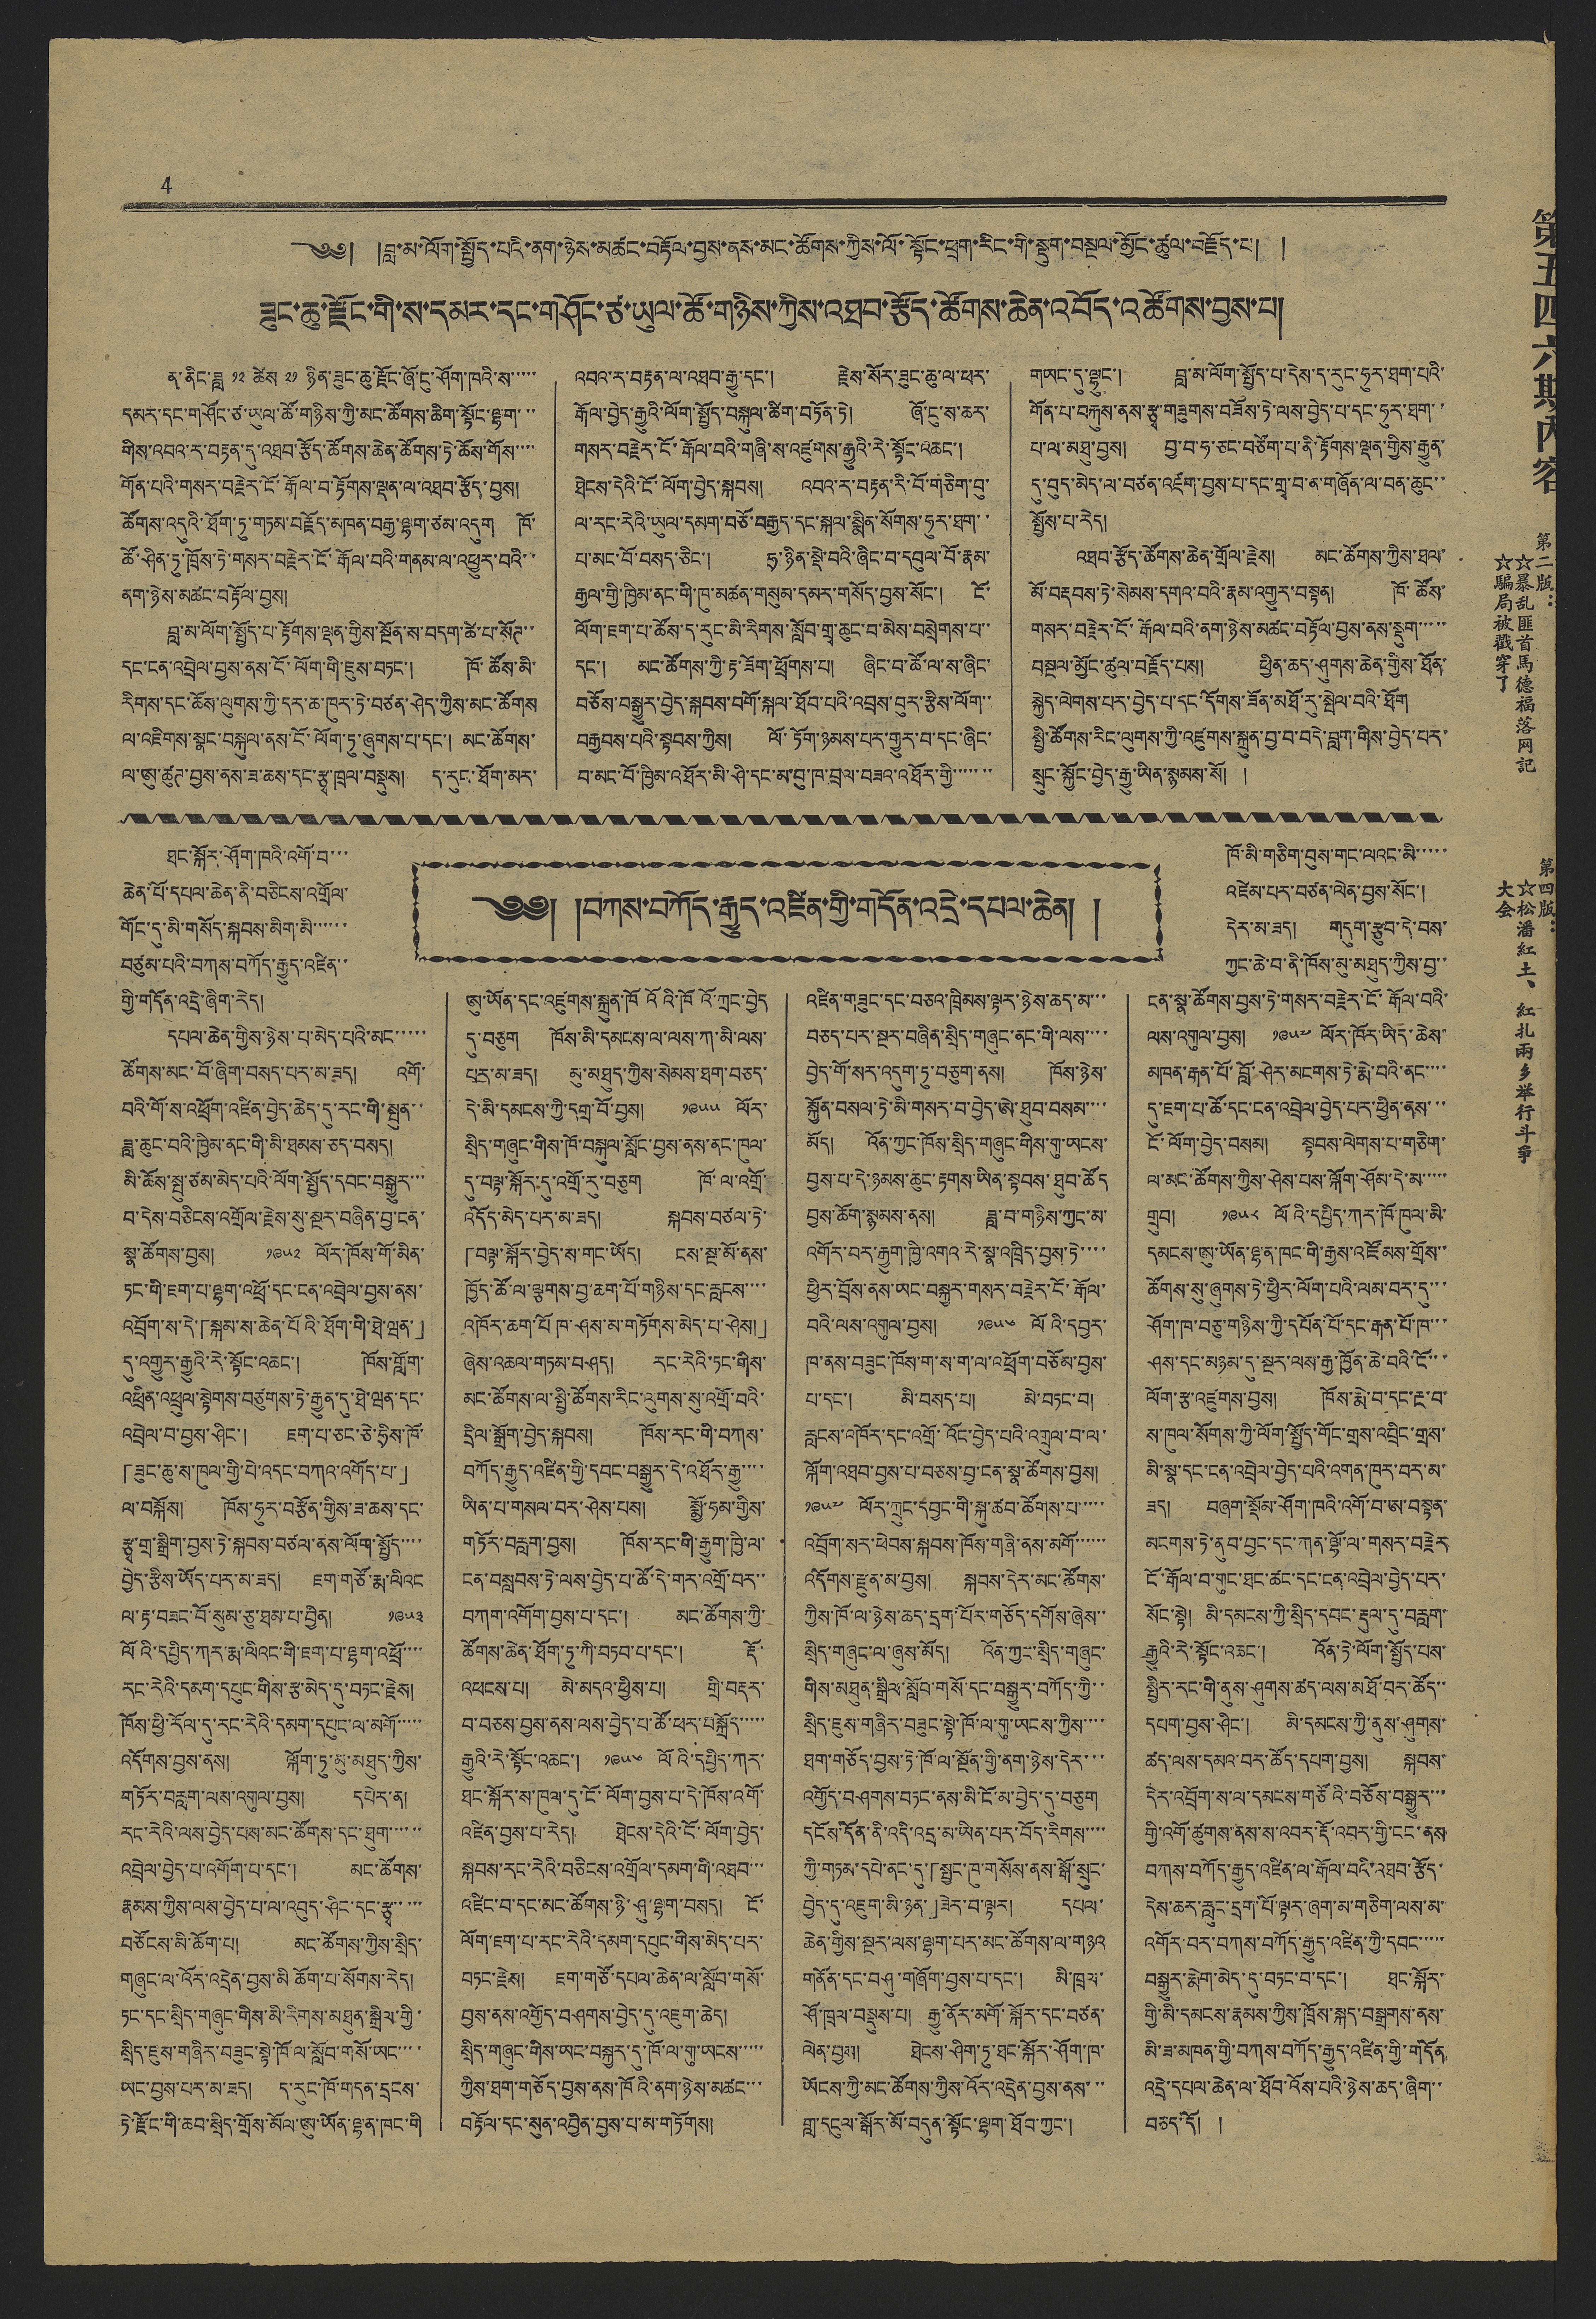4
༄༅། །བླ་མ་ལོག་སྤྱོད་པའི་ནག་ཉེས་མཚང་བརྟོལ་བྱས་ནས་མང་ཚོགས་ཀྱིས་ལོ་སྟོང་ཕྲག་རིང་གི་སྡུག་བསྔལ་མྱོང་ཚུལ་བརྗོད་པ། །
ཟུང་ཆུ་རྫོང་གི་ས་དམར་དང་གཤོང་ཙ་ཡུལ་ཚོ་གཉིས་ཀྱིས་འཐབ་རྩོད་ཚོགས་ཆེན་འབོད་འཚོགས་བྱས་པ།
ན་ནིང་ཟླ ༢ ཚེས ཉིན་ཟུ་ཆུརོང་ཞོང་ཤོག་འི་ས་་་་་
དམར་དང་གཤོང་ཙ་ཡུལ་ཚོ་གཉིས་ཀྱི་མང་ཚོགས་ཆིག་སྟོང་ལྷག་་་
གིས་འབའ་ར་བརྟན་དུ་འཐབ་རྩོད་ཚོགས་ཆེན་ཚོགས་ཏེ་ཆོས་གོས་་་་
གོན་པའི་གསར་བརྗེར་ངོ་རྒོལ་བ་རྟོགས་ལྡན་ལ་འཐབ་རྩོད་བྱས།
ཚོགས་འདུའི་ཐོག་ཏུ་གཏམ་བརྗོད་མཁན་བརྒྱ་ལྷག་ཙམ་འདུག ཁོ་
ཚོ་ཤིན་ཏུ་ཁྲོས་ཏེ་གསར་བརྗེར་ངོ་རྒོལ་བའི་གནམ་ལ་འཕྱུར་བའི་་
ནག་ཉེས་མཚང་བརྟོལ་བྱས།
བླ་མ་ལོག་སྤྱོད་པ་རྟོགས་ལྡན་གྱིས་སྔོན་ས་བདག་ཚེ་པ་སོཊ་་
དང་ངན་འབྲེལ་བྱས་ནས་ངོ་ལོག་གི་ཇུས་བཏང་། ཁོ་ཚོས་མི་
རིགས་དང་ཆོས་ལུགས་ཀྱི་དར་ཆ་ཁུར་ཏེ་བཙན་ཤེད་ཀྱིས་མང་ཚོགས
ལ་འཇིགས་སྣང་བསྐུལ་ནས་ངོ་ལོག་ཏུ་ཞུགས་པ་དང་། མང་ཚོགས་
ལ་ཨུ་ཚུཊ་བྱས་ནས་ཟ་ཆས་དང་རྩྭ་ཁྲལ་བསྡུས། ད་རུང་ཐོག་མར་
འབའ་ར་བརྟན་ལ་འཐབ་རྒྱུ་དང་། རྗེས་སོར་ཟུང་ཆུ་ལ་ཕར་
རྒོལ་བྱེད་རྒྱུའི་ལོག་སྤྱོད་བསྐུལ་ཚིག་བཏོན་ཏེ། ཞོ་ངུ་ས་ཆར་
གསར་བརྗེར་ངོ་རྒོལ་བའི་གཞི་ས་འཛུགས་རྒྱུའི་རེ་སྟོང་འཆང་།
ཐེངས་དེའི་ངོ་ལོག་བྱེད་སྐབས། འབའ་ར་བརྟན་རི་བོ་གཅིག་བུ་
ལ་རང་རེའི་ཡུལ་དམག་བཅོ་བརྒྱད་དང་སྐལ་སྨིན་སོགས་ཧུར་ཐག་་
པ་མང་བོ་བསད་ཅིང་། ཧྲ་ཉིན་སྡེ་བའི་ཞིང་བ་དབུལ་བོ་རྣམ་
རྒྱལ་གྱི་ཁྱིམ་ནང་གི་ཁུ་མཚན་གསུམ་དམར་གསོད་བྱས་སོང་། ངོ་
ལོག་ཇག་པ་ཚོས་ད་རུང་མི་རིགས་སློབ་གྲྭ་ཆུང་བ་མེས་བསྲེགས་པ་་
དང་། མང་ཚོགས་ཀྱི་རྟ་ཟོག་ཕྲོགས་པ། ཞིང་བ་ཚོ་ལ་ས་ཞིང་
བཅོས་བསྒྱུར་བྱེད་སྐབས་བགོ་སྐལ་ཐོབ་པའི་འབྲས་བུར་རྩིས་ལོག་་
བརྒྱབས་པའི་སྟབས་ཀྱིས། ལོ་ཏོག་ཉམས་པར་གྱུར་བ་དང་ཞིང་
བ་མང་བོ་ཁྱིམ་འཐོར་མི་ཤི་དང་མ་བུ་ཁ་བྲལ་བཟའ་འཐོར་གྱི་་་་་་
གཡང་དུ་ལྷུང་། བླ་མ་ལོག་སྤྱོད་པ་དེས་ད་རུང་ཧུར་ཐག་པའི་
གོན་པ་བརྐུས་ནས་རྩྭ་གཟུགས་བཟོས་ཏེ་ལས་བྱེད་པ་དང་ཧུར་ཐག་་
པ་ལ་མཐུ་བྱས། བྱ་བ་ཧ་ཅང་བཙོག་པ་ནི་རྟོགས་ལྡན་གྱིས་རྒྱུན་
དུ་བུད་མེད་ལ་བཙན་འཇག་བྱས་པ་དང་གྲྭ་བ་ན་གཞོན་ལ་བན་ཆུང་་
སྤྱོས་པ་རེད།
འཐབ་རྩོད་ཚོགས་ཆེན་གྲོལ་རྗེས། མང་ཚོགས་ཀྱིས་ཐལ་
མོ་བརྡབས་ཏེ་སེམས་དགའ་བའི་རྣམ་འགྱུར་བསྟན། ཁོ་ཚོས་
གསར་བརྗེར་ངོ་རྒོལ་བའི་ནག་ཉེས་མཚང་བརྟོལ་བྱས་ན་སྡུག་་་་་
བསྔལ་མྱོང་ཚུལ་བརྗོད་པས། ཕྱིན་ཆད་ཤུགས་ཆེན་གྱིས་ཐོན་
སྐྱེད་ལེགས་པར་བྱེད་པ་དང་དོགས་ཟོན་མཐོ་རུ་སྤེལ་བའི་ཐོག
སྤྱི་ཚོགས་རིང་ལུགས་ཀྱི་འཛུགས་སྐྲུན་བྱ་བ་བདེ་བླག་གིས་བྱེད་པར་
སྲུང་སྐྱོང་བྱེད་རྒྱུ་ཡིན་སྙམས་སོ། །
༄༅། །བཀས་བཀོད་རྒྱུད་འཛིན་གྱི་གདོན་འདྲེ་དཔལ་ཆེན།
ཐང་སྐོར་ཤོག་ཁའི་འགོ་བ་་་
ཆེན་པོ་དཔལ་ཆེན་ནི་བཅིངས་འགྲོལ་
གོང་དུ་མི་གསོད་སྐབས་མིག་མི་་་་་་
བཙུམ་པའི་བཀས་བཀོད་རྒྱུད་འཛིན་་
གྱི་གདོན་འདྲེ་ཞིག་རེད།
དཔལ་ཆེན་གྱིས་ཉེས་པ་མེད་པའི་མང་་་་་
ཚོགས་མང་བོ་ཞིག་བསད་པར་མ་ཟད། འགོ་
བའི་གོ་ས་འཕྲོག་འཛིན་བྱེད་ཆེད་དུ་རང་གི་སྤུན་་
ཟླ་ཆུང་བའི་ཁྱིམ་ནང་གི་མི་ཐམས་ཅད་བསད།
མི་ཆོས་སྤུ་ཙམ་མེད་པའི་ལོག་སྤྱོད་དབང་བསྒྱུར་་་
བ་དེས་བཅིངས་འགྲོལ་རྗེས་སུ་སྔར་བཞིན་བྱ་ངན་
སྣ་ཚོགས་བྱས། ༡༩༥༢ ལོར་ཁོས་གོ་མིན་
ཏང་གི་ཇག་པ་ལྷག་འཕྲོ་དང་ངན་འབྲེལ་བྱས་ནས་
འབྲོག་ས་དེ་「སྐམ་ས་ཆེན་པོའི་ཐོག་གི་ཐེ་ཝན་」
དུ་འགྱུར་རྒྱུའི་རེ་སྟོང་འཆང་། ཁོས་གློག་
འཕྲིན་འཕྲུལ་སྟེགས་བཙུགས་ཏེ་རྒྱུན་དུ་ཐེ་ཝན་དང་
འབྲེལ་བ་བྱས་ཤིང་། ཇག་པ་ཅང་ཅེ་ཧྲིས་ཁོ་
「ཟུང་ཆུ་ས་ཁུལ་གྱི་པེ་འདང་བཀའ་འགོད་པ་」
ལ་བསྐོས། ཁོས་ཧུར་བརྩོན་གྱིས་ཟ་ཆས་དང་
རྩྭ་གྲ་སྒྲིག་བྱས་ཏེ་སྐབས་བཙལ་ནས་ལོག་སྤྱོད་་་་
བྱེད་རྩིས་ཡོད་པར་མ་ཟད། ཇག་གཙོ་རྨ་ལིའང
ལ་རྟ་བཟང་བོ་སུམ་ཅུ་ཐམ་པ་བྱིན། ༡༩༥༣
ལོའི་དཔྱིད་ཀར་རྨ་ལིའང་གི་ཇག་པ་ལྷག་འཕྲོ་་་་
རང་རེའི་དམག་དཔུང་གིས་རྩ་མེད་དུ་བཏང་རྗེས།
ཁོས་ཕྱི་རོལ་དུ་རང་རེའི་དམག་དཔུང་ལ་མགོ་་་་་
འདོགས་བྱས་ནས། ལྐོག་ཏུ་མུ་མཐུད་ཀྱིས་
གཏོར་བརླག་ལས་འགུལ་བྱས། དཔེར་ན།
རང་རེའི་ལས་བྱེད་པས་མང་ཚོགས་དང་ཐུག་་་་་་
འབྲེལ་བྱེད་པ་འགོག་པ་དང་། མང་ཚོགས་
རྣམས་ཀྱིས་ལས་བྱེད་པ་ལ་འབུད་ཤིང་དང་རྩྭ་་་་་
བཙོངས་མི་ཆོག་པ། མང་ཚོགས་ཀྱིས་སྲིད་
གཞུང་ལ་འོར་འདྲེན་བྱས་མི ཆོག་པ་སོགས་རེད།
ཏང་དང་སྲིད་གཞུང་གིས་མི་རིགས་མཐུན་སྒྲིལ་གྱི་
སྲིད་ཇུས་གཞིར་བཟུང་སྟེ་ཁོ་ལ་སློབ་གསོ་ཡང་་་་
ཡང་བྱས་པར་མ་ཟད། ད་རུང་ཁོ་གདན་དྲངས་
ཏེ་རྫོང་གི་ཆབ་སྲིད་གྲོས་མོལ་ཨུ་ཡོན་ལྷན་ཁང་གི
ཨུ་ཡོན་དང་འཛུགས་སྐྲུན་ཁོའོའི་ཁོའོ་ཀྲང་བྱེད
དུ་བཅུག ཁོས་མི་དམངས་ལ་ལས་ཀ་མི་ལས་
པར་མ་ཟད། མུ་མཐུད་ཀྱིས་སེམས་ཐག་བཅད་
དེ་མི་དམངས་ཀྱི་དགྲ་བོ་བྱས། ༡༩༥༥ ལོར་
སྲིད་གཞུང་གིས་ཁོ་བསྐུལ་སློང་བྱས་ནས་ནང་ཁུལ་
དུ་བལྟ་སྐོར་དུ་འགྲོ་རུ་བཅུག ཁོ་ལ་འགྲོ་
འདོད་མེད་པར་མ་ཟད། སྐབས་བཙལ་ཏེ་
「བལྟ་སྐོར་བྱེད་ས་གང་ཡོད། ངས་སྔ་མོ་ནས་
ཁྱོད་ཚོ་ལ་ལྕགས་བྱ་ཆག་པོ་གཉིས་དང་རླངས་་་་
འཁོར་ཆག་པོ་ཁ་ཤས་མ་གཏོགས་མེད་པ་ཤེས།」
ཞེས་འཆལ་གཏམ་བཤད། རང་རེའི་ཏང་གིས་
མང་ཚོགས་ལ་སྤྱི་ཚོགས་རིང་ལུགས་སུ་འགྲོ་བའི་
དྲིལ་སྒྲོག་བྱེད་སྐབས། ཁོས་རང་གི་བཀས་
བཀོད་རྒྱུད་འཛིན་གྱི་དབང་བསྒྱུར་དེ་འཐོར་རྒྱུ་་་་
ཡིན་པ་གསལ་བར་ཤེས་པས། སྨྱོ་ཧམ་གྱིས་
གཏོར་བརླག་བྱས། ཁོས་རང་གི་རྒྱུག་ཁྱི་ལ་
ངན་བསླབས་ཏེ་ལས་བྱེད་པ་ཚོ་དེ་གར་འགྲོ་བར་་
བཀག་འགོག་བྱས་པ་དང་། མང་ཚོགས་ཀྱི་
ཚོགས་ཆེན་ཐོག་ཏུ་ཀི་བཏབ་པ་དང་། རྡོ་
འཕངས་པ། མེ་མདའ་ཕྱིས་པ། གྲི་བརྡར་
བ་བཅས་བྱས་ནས་ལས་བྱེད་པ་ཚོ་ཕར་བསྐྲོད་་་་་་
རྒྱུའི་རེ་སྟོང་འཆང་། ༡༩༥༦ ལོའི་དཔྱིད་ཀར་
ཐང་སྐོར་ས་ཁུལ་དུ་ངོ་ལོག་བྱས་པ་དེ་ཁོས་འགོ་
འཛིན་བྱས་པ་རེད། ཐེངས་དེའི་ངོ་ལོག་བྱེད་
སྐབས་རང་རེའི་བཅིངས་འགྲོལ་དམག་གི་འཐབ་་་
འཛིང་བ་དང་མང་ཚོགས་ཉི་ཤུ་ལྷག་བསད། ངོ་
ལོག་ཇག་པ་རང་རེའི་དམག་དཔུང་གིས་མེད་པར་
བཏང་རྗེས། ཇག་གཙོ་དཔལ་ཆེན་ལ་སློབ་གསོ་
བྱས་ནས་འགྱོད་བཤགས་བྱེད་དུ་འཇུག་ཆེད།
སྲིད་གཞུང་གིས་ཡང་བསྐྱར་དུ་ཁོ་ལ་གུ་ཡངས་་་་་
ཀྱིས་ཐག་གཅོད་བྱས་ནས་ཁོའི་ནག་ཉེས་མཚང་་་
བརྟོལ་དང་སུན་འབྱིན་བྱས་པ་མ་གཏོགས།
འཛིན་གཟུང་དང་བཅའ་ཁྲིམས་ལྟར་ཉེས་ཆད་མ་་་
བཅད་པར་སྔར་བཞིན་སྲིད་གཞུང་ནང་གི་ལས་་་་
བྱེད་གོ་སར་འདུག་ཏུ་བཅུག་ནས། ཁོས་ཉེས་
སྐྱོན་བསལ་ཏེ་མི་གསར་བ་བྱེད་ཨེ་ཐུབ་བསམ་་་་
མོད། འོན་ཀྱང་ཁོས་སྲིད་གཞུང་གིས་གུ་ཡངས་
བྱས་པ་དེ་ཉམས་ཆུང་རྟགས་ཡིན་སྟབས་ཐུབ་ཚོད
བྱས་ཆོག་སྙམས་ནས། ཟླ་བ་གཉིས་ཀྱང་མ་
འགོར་བར་རྒྱུག་ཁྱི་འགའ་རེ་སྣ་འཁྲིད་བྱས་ཏེ་་་་
ཕྱིར་བྲོས་ནས་ཡང་བསྐྱར་གསར་བརྗེར་ངོ་རྒོལ་
བའི་ལས་འགུལ་བྱས། ༡༩༥༦ ལོའི་དབྱར་
ཁ་ནས་བཟུང་ཁོས་ག་ས་ག་ལ་འཕྲོག་བཅོམ་བྱས་
པ་དང་། མི་བསད་པ། མེ་བཏང་བ།
རླངས་འཁོར་དང་འགྲོ་འོང་བྱེད་པའི་འགྲུལ་བ་ལ་
ལྐོག་འཐབ་བྱས་པ་བཅས་བྱ་ངན་སྣ་ཚོགས་བྱས།
༡༩༥༧ ལོར་ཀྲུང་དབྱང་གི་སྐུ་ཚབ་ཚོགས་པ་་་་་
འབྲོག་སར་ཕེབས་སྐབས་ཁོས་གཞི་ནས་མགོ་་་་་་
འདོགས་རྫུན་མ་བྱས། སྐབས་དེར་མང་ཚོགས་
ཀྱིས་ཁོ་ལ་ཉེས་ཆད་དྲག་པོར་གཅོད་དགོས་ཞེས་་
སྲིད་གཞུང་ལ་ཞུས་མོད། འོན་ཀྱང་སྲིད་གཞུང་
གིས་མཐུན་སྒྲིལ་སློབ་གསོ་དང་བསྒྱུར་བཀོད་ཀྱི་་
སྲིད་ཇུས་གཞིར་བཟུང་སྟེ་ཁོ་ལ་གུ་ཡངས་ཀྱིས་་་་
ཐག་གཅོད་བྱས་ཏེ་ཁོ་ལ་སྔོན་གྱི་ནག་ཉེས་དེར་་
འགྱོད་བཤགས་བཏང་ནས་མི་ངོ་མ་བྱེད་དུ་བཅུག
དངོས་དོན་ནི་འདི་འདྲ་མ་ཡིན་པར་བོད་རིགས་་་
ཀྱི་གཏམ་དཔེ་ནང་དུ་「སྤྱང་ཁུ་གསོས་ནས་སྒོ་སྲུང་
བྱེད་དུ་འཇུག་མི་ཉན་」ཟེར་བ་ལྟར། དཔལ་
ཆེན་གྱིས་སྔར་ལས་ལྷག་པར་མང་ཚོགས་ལ་གཉའ
གནོན་དང་བཤུ་གཞོག་བྱས་པ་དང་། མི་ཁྲལ་
ཤོ་ཁྲལ་བསྡུས་པ། རྒྱུ་ནོར་མགོ་སྐོར་དང་བཙན་
ལེན་བྱས། ཐེངས་ཤིག་ཏུ་ཐང་སྐོར་ཤོག་ཁ་
ཡོངས་ཀྱི་མང་ཚོགས་ཀྱིས་འོར་འདྲེན་བྱས་ནས་་་
གླ་དངུལ་སྒོར་མོ་བདུན་སྟོང་ལྷག་ཐོབ་ཀྱང་།
ཁོ་མི་གཅིག་བུས་གང་ལའང་མི་་་་་
འཛེམ་པར་བཙན་ལེན་བྱས་སོང་།
དེར་མ་ཟད། གདུག་རྩུབ་དེ་བས་
ཀྱང་ཆེ་བ་ནི་ཁོས་མུ་མཐུད་ཀྱིས་བྱ་་
ངན་སྣ་ཚོགས་བྱས་ཏེ་གསར་བརྗེར་ངོ་རྒོལ་བའི་
ལས་འགུལ་བྱས། ༡༩༥༧ ལོར་ཁོར་ཡིད་ཆེས་
མཁན་རྒན་པོ་བློ་ཤེར་མངགས་ཏེ་རྨེ་བའི་ནང་་་་
དུ་ཇག་པ་ཚོ་དང་ངན་འབྲེལ་བྱེད་པར་ཕྱིན་ནས་་་
ངོ་ལོག་བྱེད་བསམ། སྟབས་ལེགས་པ་གཅིག་
ལ་མང་ཚོགས་ཀྱིས་ཤེས་པས་ལྐོག་ཤོམ་དེ་མ་་་་་
གྲུབ། ༡༩༥༨ ལོའི་དཔྱིད་ཀར་ཁོ་ཁུལ་མི་
དམངས་ཨུ་ཡོན་ལྷན་ཁང་གི་རྒྱས་འཛོམས་གྲོས་་
ཚོགས་སུ་ཞུགས་ཏེ་ཕྱིར་ལོག་པའི་ལམ་པར་དུ་་་
ཤོག་ཁ་བཅུ་གཉིས་ཀྱི་དཔོན་པོ་དང་རྒན་པོ་ཁ་་་
ཤས་དང་མཉམ་དུ་སྔར་ལས་རྒྱ་ཁྱོན་ཆེ་བའི་ངོ་་་
ལོག་རྩ་འཛུགས་བྱས། ཁོས་རྨེ་བ་དང་རྔ་བ་
ས་ཁུལ་སོགས་ཀྱི་ལོག་སྤྱོད་གོང་གྲས་འབྲིང་གྲས་
མི་སྣ་དང་ངན་འབྲེལ་བྱེད་པའི་འགན་ཁུར་བར་མ་
ཟད། བཞག་སྡོམ་ཤོག་ཁའི་འགོ་བ་ཨ་བསྟན་
མངགས་ཏེ་ནུབ་བྱང་དང་ཀན་ལྷོ་ལ་གསར་བརྗེར
ངོ་རྒོལ་བ་གུང་ཐང་ཚང་དང་ངན་འབྲེལ་བྱེད་པར་
སོང་སྟེ། མི་དམངས་ཀྱི་སྲིད་དབང་རྡུལ་དུ་བརླག་
རྒྱུའི་རེ་སྟོང་འཆང་། འོན་ཏེ་ལོག་སྤྱོད་པས་
སྤྱིར་རང་གི་ནུས་ཤུགས་ཚད་ལས་མཐོ་བར་ཚོད་་
དཔག་བྱས་ཤིང་། མི་དམངས་ཀྱི་ནུས་ཤུགས་
ཚད་ལས་དམའ་བར་ཚོད་དཔག་བྱས། སྐབས་
དེར་འབྲོག་ས་ལ་དམངས་གཙོའི་བཅོས་བསྒྱུར་་
གྱི་འགོ་ཚུགས་ནས་ས་འབར་རྡོ་འབར་གྱི་ངང་ནས
བཀས་བཀོད་རྒྱུད་འཛིན་ལ་རྒོལ་བའི་འཐབ་རྩོད་
དེས་ཆར་རླུང་དྲག་པོ་ལྟར་ཞག་མ་གཅིག་ལས་མ་
འགོར་བར་བཀས་བཀོད་རྒྱུད་འཛིན་ཀྱི་དབང་་་་་
བསྒྱུར་རྨེག་མེད་དུ་བཏང་བ་དང་། ཐང་སྐོར་
གྱི་མི་དམངས་རྣམས་ཀྱིས་ཁྲོས་སྐད་བསྒྲགས་ནས་
མི་ཟ་མཁན་གྱི་བཀས་བཀོད་རྒྱུད་འཛིན་གྱི་གདོན
འདྲེ་དཔལ་ཆེན་ལ་ཐོབ་འོས་པའི་ཉེས་ཆད་ཞིག་་
བཅད་དོ། །
第五四六期內容
第二版：
☆暴乱匪首馬德福落网記
☆騙局被戳穿了
第四版：
☆松潘紅土、紅扎兩乡举行斗爭
大会
